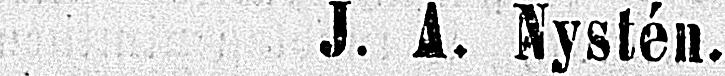J. A. Nystén.
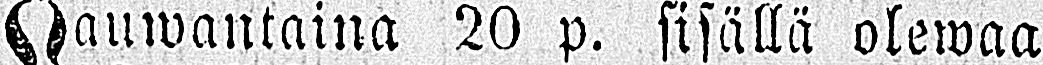Lauwantaina 20 p. sisällä olewaa
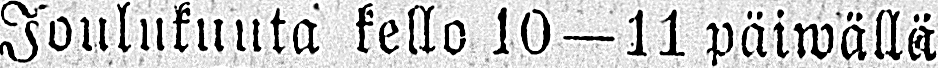Joulukuuta kello 10—11 päiwällä
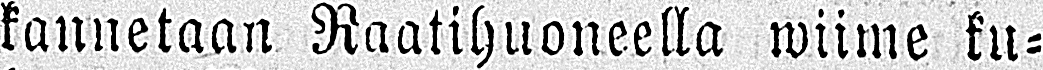kannetaan Raatihuoneella wiime ku-
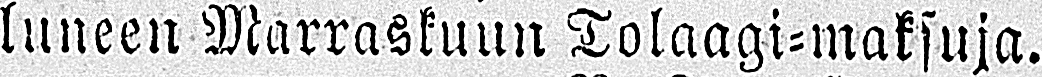luneen Marraskuun Tolaagi-maksuja.
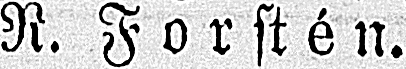N. Forstén.
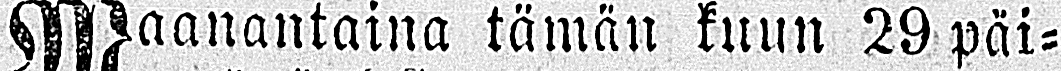Maanantaina tämän kuun 29 päi-
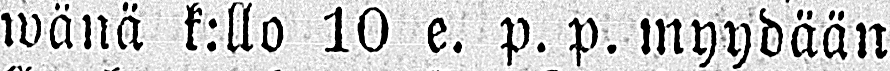wänä k:llo 10 e. p. p. myydään
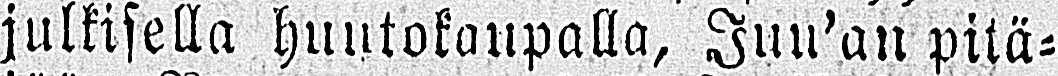julkisella huutokaupalla, Juu'an pitä-
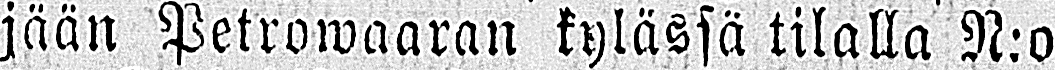jään Petrowaaran kylässä tilalla N:o
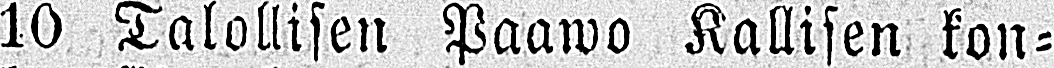10 Talollisen Paawo Kallisen kon-
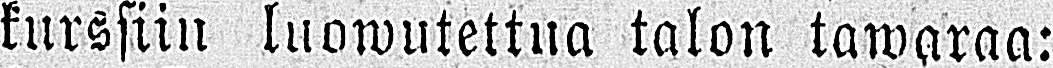kurssiin luowutettua talon tawaraa:
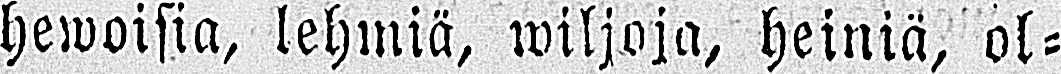hewoisia, lehmiä, wiljoja, heiniä, ol-
